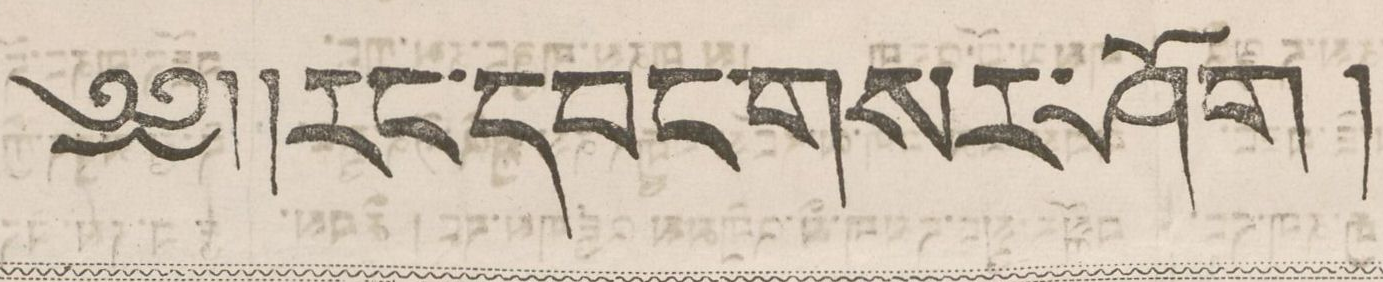༄༅།།རང་དབང་གསར་ཤོག །
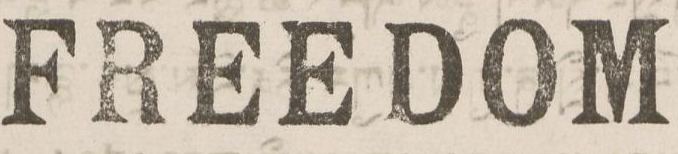FREEDOM
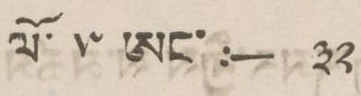ལོ་ ༥ ཨང་ :— ༣༢
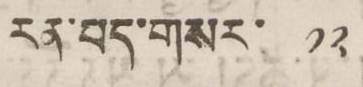རན་བད་གསར་ ༡༢
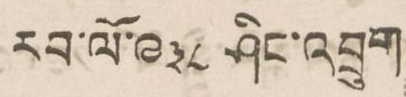རབ་ལོ་༩༣༨ ཤིང་འབྲུག
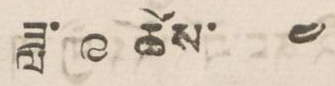ཟླ་ ༩ ཚེས་ ༤
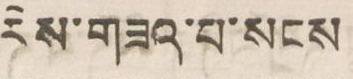རེས་གཟའ་པ་སངས་
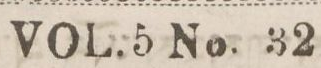VOL. 5 No. 32
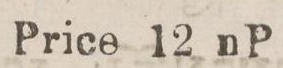Price 12 nP
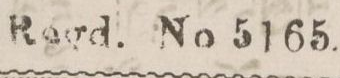Road No 5165
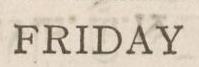FRIDAY
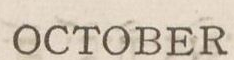OCTOBER
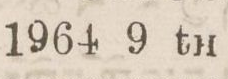1964 9 th
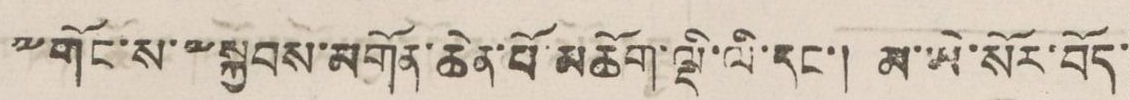༸གོང་ས་༸སྐྱབས་མགོན་ཆེན་པོ་མཆོག་ལྡི་ལི་དང་། མ་ཡེ་སོར་བོད་
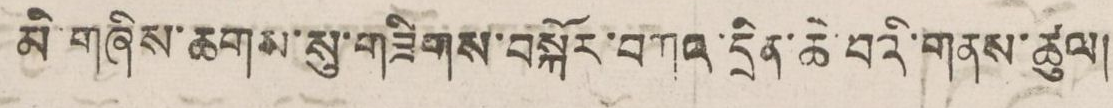མི་གཞིས་ཆགས་སུ་གཟིགས་བསྐོར་བཀའ་དྲིན་ཆེ་བའི་གནས་ཚུལ།
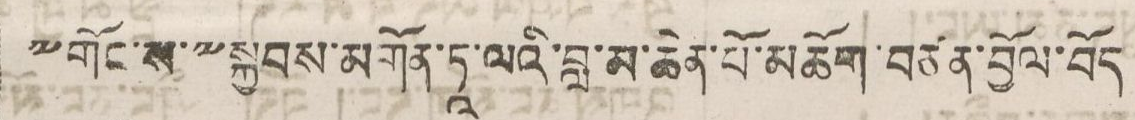༸གོང་ས་༸སྐྱབས་མགོན་ཏཱ་ལའི་བླ་མ་ཆེན་པོ་མཆོག་བཙན་བྱོན་བོད
